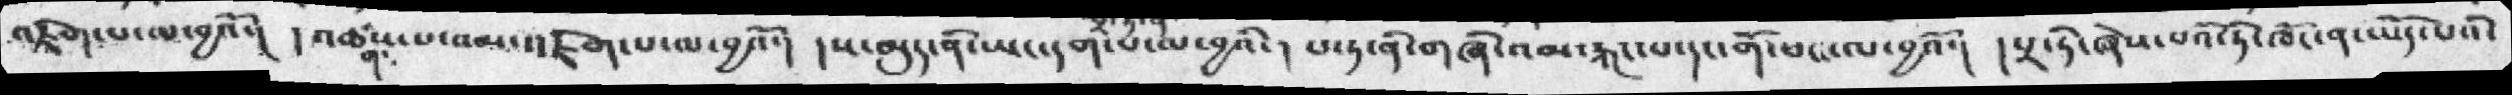འཇིག་པ་ལ་བྱའོ་།   །  འཆིངས་པ་འམ་འཇིགས་པ་ལ་བྱའོ་།     ། ས་མུད་ནི་ཡང་དག་པ་ལ་བྱའོ་།  པ་ཏ་ནི་གཞི་འམ་རྐང་པ་དང་གོ་ཕང་ལ་བྱའོ་།  །པྲ་ཏི་ཞེས་པའི་ཏི་ཁོང་ན་ཡོད་པའི་
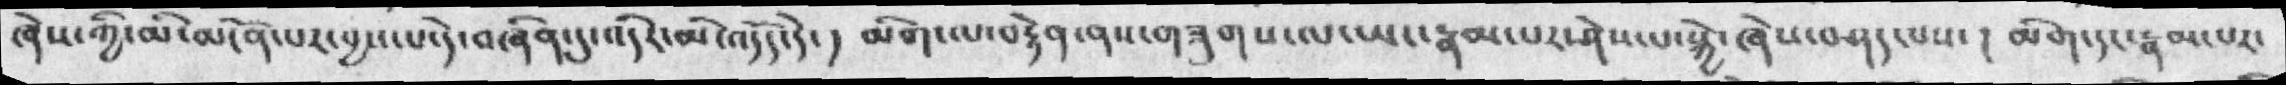ཞེས་གྱི་མི་མངོན་པར་བྱས་པ་དེ་བཞིན་དུ་འདིར་མི་འདོད་དེ་ ། མིག་ལ་བརྟེན་ནས་གཟུགས་ལ་ཡང་རྣམ་པར་ཤེས་པ་སྐྱེ་ཞེས་བཤད་པས་ ། མིག་དང་རྣམ་པར་
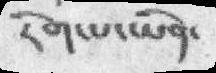རིག་པ་ཡིན་
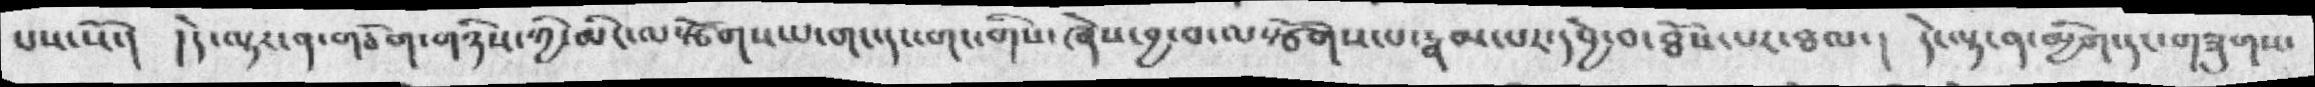པས་སོ་།  །དེ་ལྟར་ན་གཅོག་གཉིས་ཀྱི་མིང་ལསྩོགས་པ་གང་དང་གང་གིས་ཞེས་བྱ་བ་ལསྩོགས་པ་རྣམ་པར་དབྱེ་བ་ཐོས་པར་ཐལ་།   དེ་ལྟར་ན་མྱིག་དང་གཟུགས་
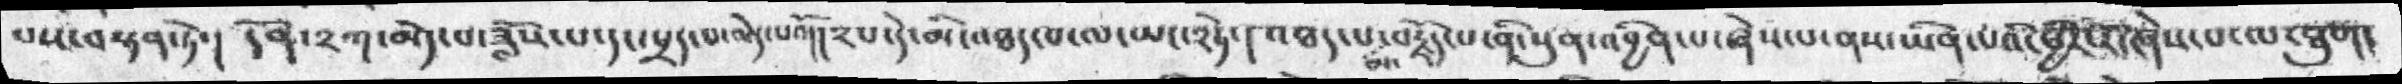པས་བསྟན་ཏེ་།  དོན་༢ཀ་མེད་པ་ཟློས་པ་དང་ཕྲད་པ་མེད་པའོ།།  ༢པ་དེ་མི་འཐད་པ་ལ་མང་༢ཏེ་།  འཐད་པ་མ་བརྗོད་པ་ནི་སུན་འབྱིན་པ་ཞེས་པ་ནས་ཡིན་པའི་ཕྱིར་རོ་ཞེས་པ་ལ་ཐུག་
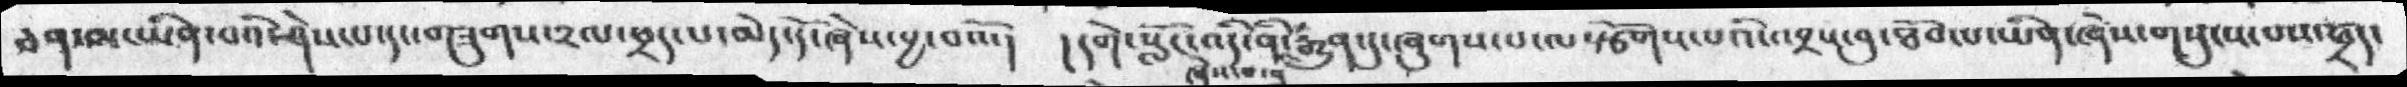ཅན་མ་ཡིན་པའི་ཤེས་པ་དང་གཟུགས་༢ལ་ཕྲད་པ་མེད་དོ་ཞེས་བྱ་བའོ་།  ། དགེ་སློང་འདི་ནི་རྒྱུན་དུ་ཞུགས་པ་ལསྩོགས་པའི་འབྲས་བུ་ཐོབ་པ་ཡིན་ཞེས་གསུངས་པས་ཕྲད་
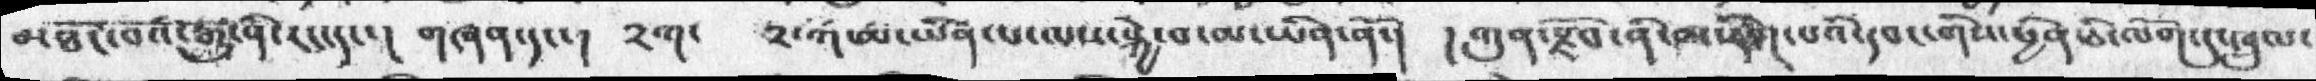མཐོང་བའི་རྒྱུ་ཤིང་རང་དང་།   གཞན་དང་།   ༢ག་   ༢་ག་མ་ཡིན་པ་ལས་སྐྱེ་བ་མ་ཡིན་ནོ་།    །ཀུན་སྫོབ་ནི་མ་རིག་པའི་དབང་གིས་ཕྱིན་ཅི་ལོག་དུ་འཁྲུལ་
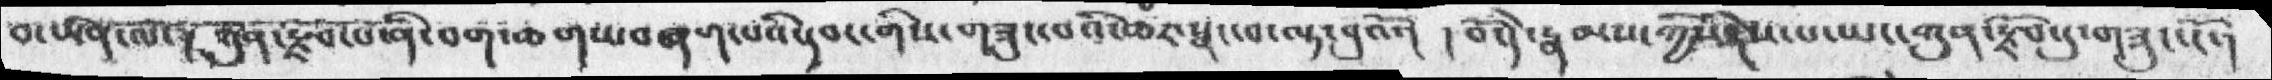བ་ཡིན་ལོག།  ཀུན་རྫོབ་པ་ནི་བག་ཆགས་བཞག་པའི་དབང་གིས་གཟུང་བའི་ཆར་སྣང་བ་ལྟ་བུའོ་།   ། བོ་དེ་རྣམས་ཀྱིས་ཤེས་པ་ཡང་ཀུན་སྫོབ་དུ་གཟུང་ངོ་།
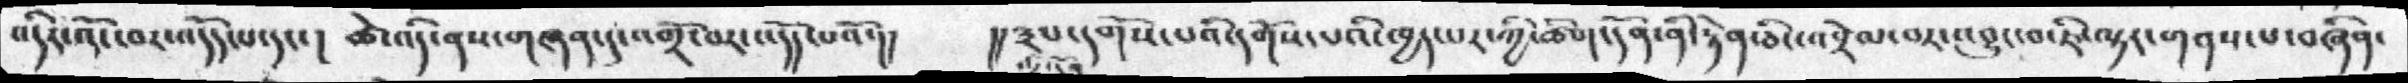འདིར་འོང་བར་འདོད་པ་དང་།  ཚེ་འདི་ནས་གཞན་དུ་འགྲོ་བར་འདོད་པའོ་།།  །། ༣པ་དགོས་པའི་དགོས་པའི་ཁྱད་པར་ཀྱི་ཚིག་དོན་ནི་རྟེན་ཅིང་འབྲེལ་བར་འབྱུང་བ་ཇི་ལྟར་གནས་པ་བཞིན་
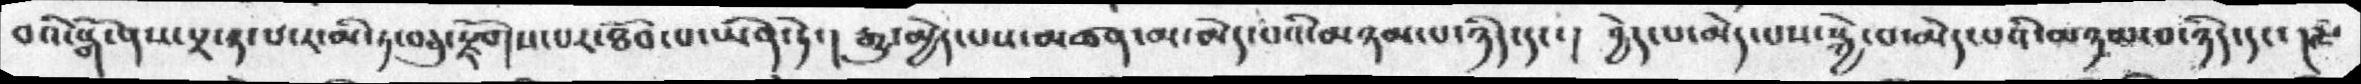བའི་སྒོ་ནས་པྲ་ཏ་པ་ར་མི་ཏ་བཅུ་རྗོགས་པར་ཐོབ་པ་ཡིན་ཏེ་།   རྒྱུ་མྱེདཔས་མཚན་མ་མེད་པའི་མཉམ་པ་ཉིད་དངད་།  བྱེད་པ་མེད་པས་སྐྱེ་བ་མེད་པའི་མཉམ་པ་ཉིད་དང་ ། རྗེ་
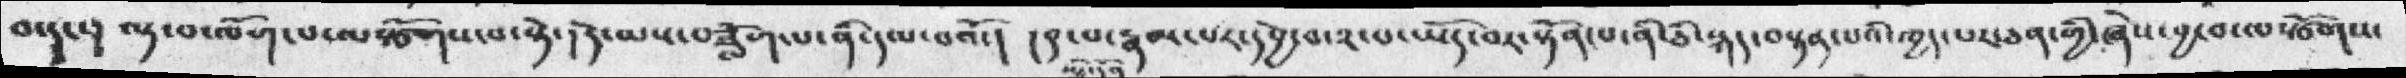པ་དང་།  ལྟ་བ་ལོག་པ་་ལསྩོགས་པ་སྟེ་།  དེ་ལས་བཟློག་པ་ནི་དམ་པའོ་།  དད་པ་ཡི་དོན་རྣམ་པར་དབྱེ་བ་༢་པ་ཡོད་པར་སྟོན་པ་ནི་ཅི་སྐད་པའི་ཁྱད་པར་གྱི་ཞེས་བྱ་བ་ལསྩོགས་
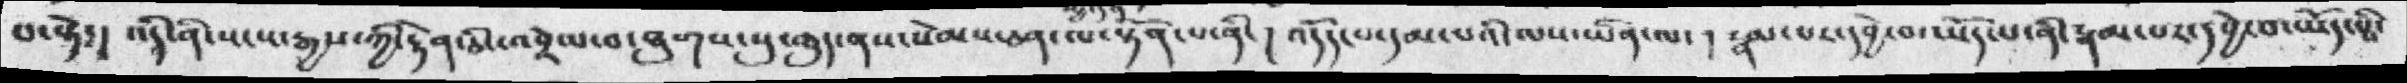པ་སྟེ་།    འདི་ནི་སངས་རྒྱས་ཀྱི་རྟེན་ཅིང་འབྲེལ་བ་ཐུགས་སུ་ཆུད་ནས་སེམས་ཅན་ལ་སྟོན་པ་ནི་།   འདོད་པ་དམ་པའི་ལས་ཡིན་ལ་ ། རྣམ་པར་དབྱེ་བ་ཡོད་པ་ནི་རྣམ་པར་དབྱེ་བ་ཡོད་པའི་
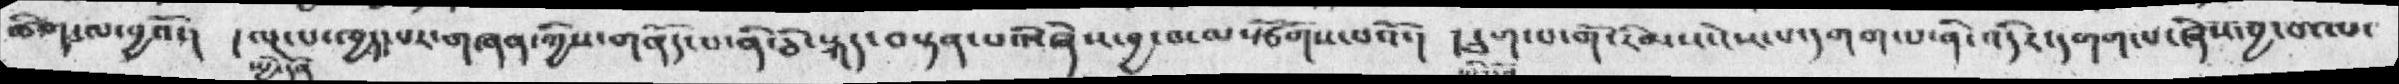ཚིག་ལ་བྱའོ་།  །ཡྱི་དོན་ལྔ་པ་ཁྱད་པར་གཞན་ཀྱིས་གནོད་པ་ནི་ཅི་སྐད་བསྟན་པའི་ཞེས་བྱ་བ་ལསྩོགས་པའོ་།  ། དྲུག་པ་གོ་རིམས་ངེས་པ་དགག་པ་ནི་འདིར་དགག་པ་ཞེས་བྱ་བ་ལ་
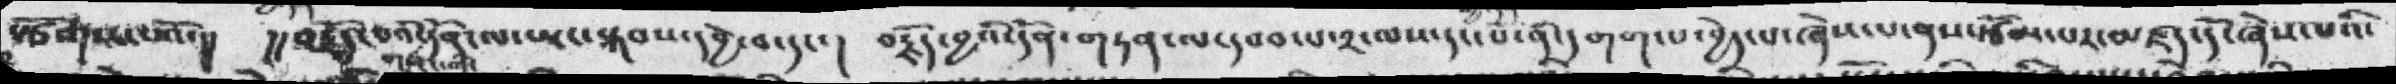སྩོགས་པའོ་།།  །། བརྗོད་པའི་གཞུང་གི་དོན་ལ་ཡང་སྐབས་དབྱེ་བ་དང་།  བརྗོད་བྱའི་དོན་གཏན་ལ་དབབ་པ་༢་ལས་དང་པོ་ནི་དགག་པ་བྱེད་པ་ཞེས་པ་ནས་སྩོམ་པར་མཛད་དོ་ཞེས་པའི་
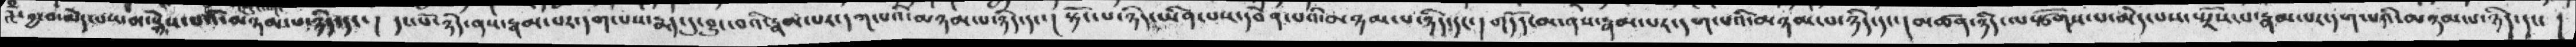འི་   བྱ་བ་མེད་པ་བམ་སྒེས་བའི་མི་ཉམ་པ་ཉིད་དང་།  དང་པོ་ཉིས་ནས་རྣམ་པར་དག་པས་རྨད་དུ་བྱུང་བའི་རྣམ་པར་དག་པའི་མཉམ་པ་ཉིད་དང་།  སྟོང་པ་ཉིད་ཡིན་པས་དབེན་པའི་མཉམ་པ་ཉིད་དང་།  གདོད་མ་ནས་རྣམ་པར་དག་པའི་མཉམ་པ་ཉིད་དང་།  མཚན་ཉིད་ལསྩོགས་མེད་པས་ཡྲོས་པ་རྣམ་པར་དག་པའི་མཉམ་པ་ཉིད་དང་ །
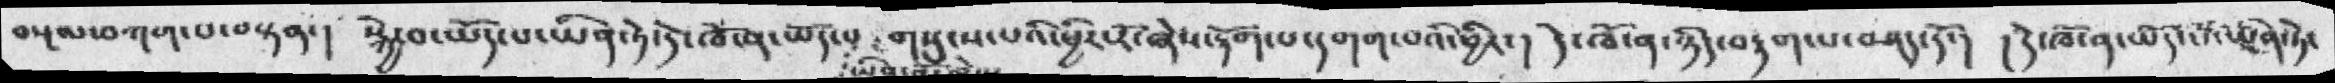བསྔལ་བཀག་པ་བསྟན་།  སྐྱེ་བ་ཡོད་པ་ཡིན་ཏེ་དེ་ཁོ་ན་ཡོད་པ་ཡིན་ནོ་ཞེས་གསུངས་པའི་ཕྱིར་རོ་ཞེས་རྟོག་པ་དགག་པའི་ཕྱིར་།  དེ་ཁོ་ན་ཉིད་བརྟག་པ་བཤད་དོ་།  །དེ་ཁོ་ན་ཡོད་པ་ཡིན་ཏེ་
